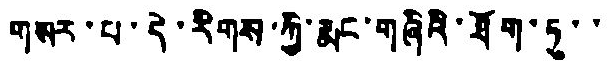གསར་པ་དེ་རིགས་ཀྱི་རྨང་གཞིའི་ཐོག་ཏུ་་
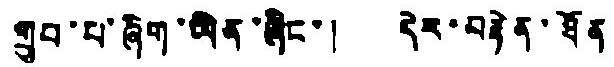གྲུབ་པ་ཞིག་ཡིན་ཞིང་། དེར་བརྟེན་ཐོན
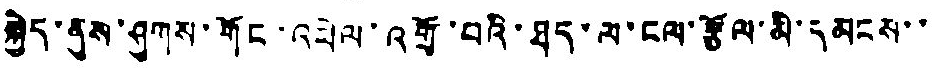སྐྱེད་ནུས་ཤུགས་གོང་འཕེལ་འགྲོ་བའི་ཐད་ལ་ངལ་རྩོལ་མི་དམངས་་
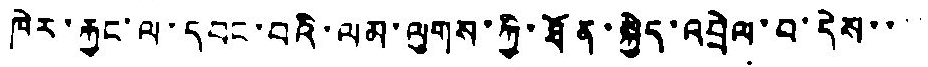ཁེར་རྐྱང་ལ་དབང་བའི་ལམ་ལུགས་ཀྱི་ཐོན་སྐྱེད་འབྲེལ་བ་དེས་་་
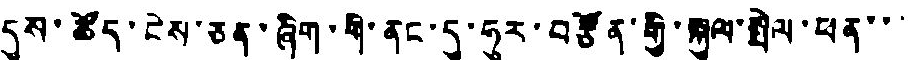དུས་ཚོད་ངེས་ཅན་ཞིག་གི་ནང་དུ་ཧུར་བརྩོན་གྱི་སྐུལ་སྤེལ་ཕན་་་
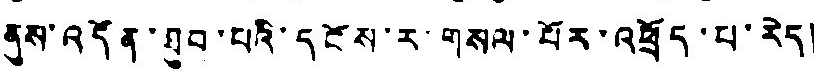ནུས་འདོན་ཐུབ་པའི་དངོས་ར་གསལ་པོར་འཕྲོད་པ་རེད།
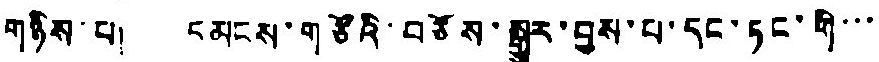གཉིས་པ། དམངས་གཙོའི་བཅོས་སྒྱུར་བྱས་པ་དང་རྟང་གི་་་
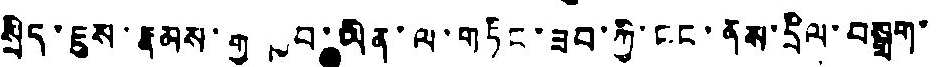སྲིད་ཇུས་རྣམས་རྒྱགྱི་ཁྱབ་ཡིན་ལ་གཏིང་ཟབ་ཀྱི་ངང་ནས་དྲིལ་བསྒྲག་
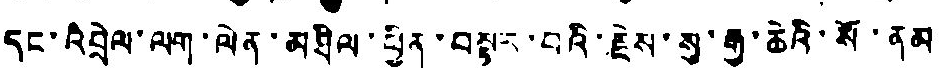དང་འབྲེལ་ལག་ལེན་མཐིལ་ཕྱིན་བསྟར་བའི་རྗེས་སུ་རྒྱ་ཆེའི་སོ་ནམ
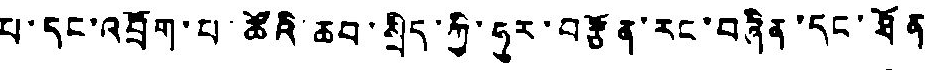པ་དང་འབྲོག་པ་ཚོའི་ཆབ་སྲིད་ཀྱི་ཧུར་བརྩོན་རང་བཞིན་དང་ཐོན
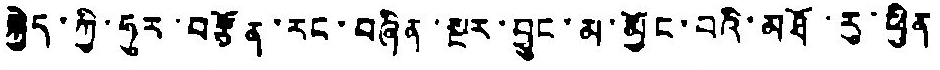སྐྱེད་ཀྱི་ཧུར་བརྩོན་རང་བཞིན་སྔར་བྱུང་མ་མྱོང་བའི་མཐོ་རུ་ཕྱིན
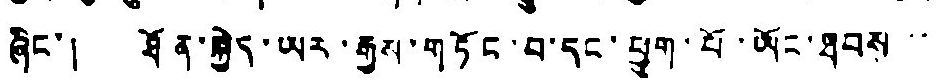ཞིང་། ཐོན་སྐྱེད་ཡར་རྒྱས་གཏོང་བ་དང་ཕྱུག་པོ་ཡོང་ཐབས་་
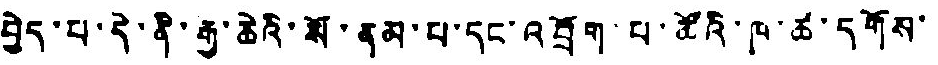བྱེད་པ་དེ་ནི་རྒྱ་ཆེའི་སོ་ནམ་པ་དང་འབྲོག པ་ཚོའི་ཁ་ཚ་དགོས་
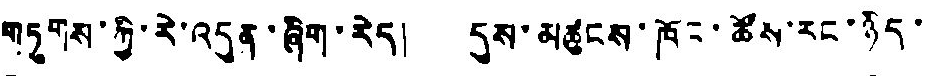གཏུགས་ཀྱི་རེ་འདུན་ཞིག་རེད། དུས་མཚུངས་ཁོང་ཚོས་རང་ཉིད་
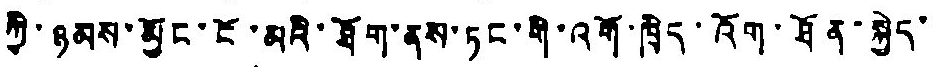ཀྱི་ཉམས་མྱོང་ངོ་མའི་ཐོག་ནས་ཏང་གི་འགོ་ཁྲིད་འོག་ཐོན་སྐྱེད་
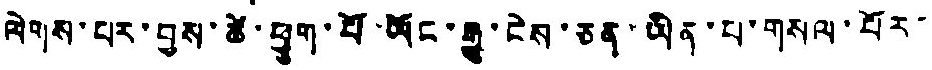ལེགས་པར་བྱས་ཚེ་ཕྱག་པོ་ཡོང་རྒྱུ་ངེས་ཅན་ཡིན་པ་གསལ་པོར་
